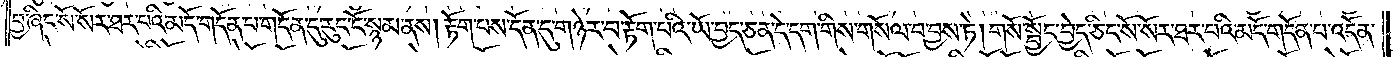བྱ་ཞིང་སོ་སོར་ཐར་པའི་མདོ་གདོན་པ་གདོན་དུ་རུང་ངོ་སྙམ་ནས། རྟོག་པས་དོན་དུ་གཉེར་བ་རྟོག་པའི་ཡོ་བྱད་ཅན་དེ་དག་གིས་གསོལ་བ་བྱས་ཏེ། གསོ་སྦྱོང་བྱེད་ཅིང་སོ་སོར་ཐར་པའི་མདོ་གདོན་པ་འདོན་
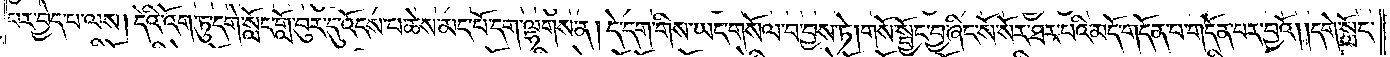པར་བྱེད་པ་ལས། དེའི་འོག་ཏུ་དགེ་སློང་གློ་བུར་དུ་འོངས་པ་ཆེས་མང་པོ་དག་ལྷགས་ན། དེ་དག་གིས་ཡང་གསོལ་བ་བྱས་ཏེ། གསོ་སྦྱོང་བྱ་ཞིང་སོ་སོར་ཐར་པའི་མདོ་གདོན་པ་གདོན་པར་བྱའོ། །དགེ་སློང་
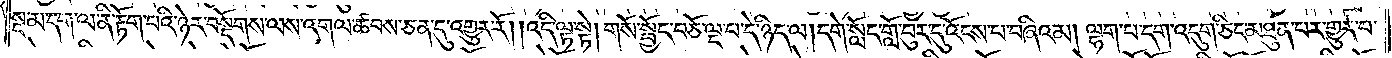སྔ་མ་དག་ལ་ནི་རྟོག་པའི་ཉེར་བསྡོགས་ལས་འགལ་ཚབས་ཅན་དུ་འགྱུར་རོ། །འདི་ལྟ་སྟེ། གསོ་སྦྱོང་བཅོ་ལྔ་པ་དེ་ཉིད་ལ། དགེ་སློང་གློ་བུར་དུ་འོངས་པ་བཞིའམ། ལྷག་པ་དག་འདུག་ཅིང་མཐུན་པར་གྱུར་བ་
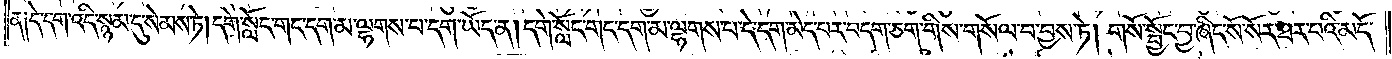ན། དེ་དག་འདི་སྙམ་དུ་སེམས་ཏེ། དགེ་སློང་གང་དག་མ་ལྷགས་པ་དག་ཡོད་ན། དགེ་སློང་གང་དག་མ་ལྷགས་པ་དེ་དག་མེད་པར་བདག་ཅག་གིས་གསོལ་བ་བྱས་ཏེ། གསོ་སྦྱོང་བྱ་ཞིང་སོ་སོར་ཐར་པའི་མདོ་
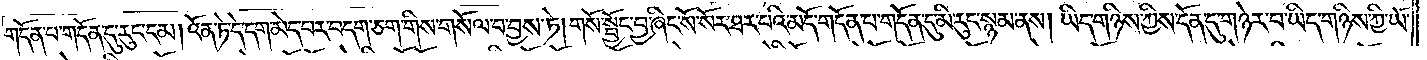གདོན་པ་གདོན་དུ་རུང་ངམ། འོན་ཏེ་དེ་དག་མེད་པར་བདག་ཅག་གིས་གསོལ་བ་བྱས་ཏེ། གསོ་སྦྱོང་བྱ་ཞིང་སོ་སོར་ཐར་པའི་མདོ་གདོན་པ་གདོན་དུ་མི་རུང་སྙམ་ནས། ཡིད་གཉིས་ཀྱིས་དོན་དུ་གཉེར་བ་ཡིད་གཉིས་ཀྱི་ཡོ་
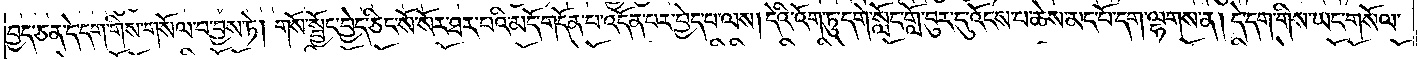བྱད་ཅན་དེ་དག་གིས་གསོལ་བ་བྱས་ཏེ། གསོ་སྦྱོང་བྱེད་ཅིང་སོ་སོར་ཐར་པའི་མདོ་གདོན་པ་འདོན་པར་བྱེད་པ་ལས། དེའི་འོག་ཏུ་དགེ་སློང་གློ་བུར་དུ་འོངས་པ་ཆེས་མང་པོ་དག་ལྷགས་ན། དེ་དག་གིས་ཡང་གསོལ་
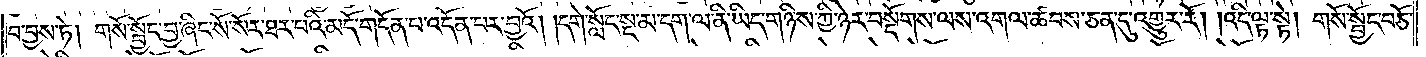བ་བྱས་ཏེ། གསོ་སྦྱོང་བྱ་ཞིང་སོ་སོར་ཐར་པའི་མདོ་གདོན་པ་འདོན་པར་བྱའོ། །དགེ་སློང་སྔ་མ་དག་ལ་ནི་ཡིད་གཉིས་ཀྱི་ཉེར་བསྡོགས་ལས་འགལ་ཚབས་ཅན་དུ་འགྱུར་རོ། །འདི་ལྟ་སྟེ། གསོ་སྦྱོང་བཅོ་
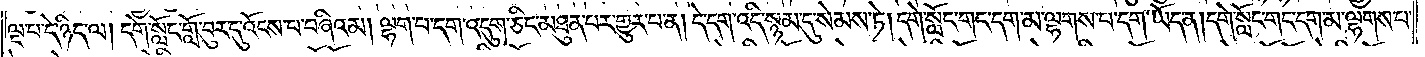ལྔ་པ་དེ་ཉིད་ལ། དགེ་སློང་གློ་བུར་དུ་འོངས་པ་བཞིའམ། ལྷག་པ་དག་འདུག་ཅིང་མཐུན་པར་གྱུར་པ་ན། དེ་དག་འདི་སྙམ་དུ་སེམས་ཏེ། དགེ་སློང་གང་དག་མ་ལྷགས་པ་དག་ཡོད་ན། དགེ་སློང་གང་དག་མ་ལྷགས་པ་
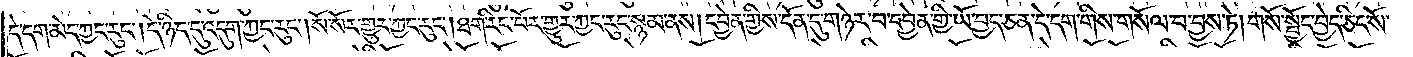དེ་དག་མེད་ཀྱང་རུང༌། དེ་ཉིད་དུ་འདུག་ཀྱང་རུང༌། སོ་སོར་གྱུར་ཀྱང་རུང༌། ཐག་རིང་པོར་གྱུར་ཀྱང་རུང་སྙམ་ནས། དབྱེན་གྱིས་དོན་དུ་གཉེར་བ་དབྱེན་གྱི་ཡོ་བྱད་ཅན་དེ་དག་གིས་གསོལ་བ་བྱས་ཏེ། གསོ་སྦྱོང་བྱེད་ཅིང་སོ་
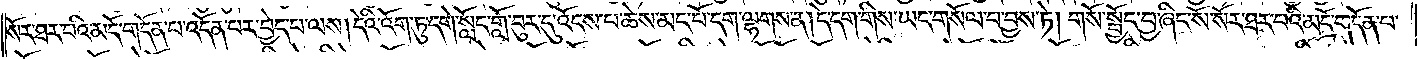སོར་ཐར་པའི་མདོ་གདོན་པ་འདོན་པར་བྱེད་པ་ལས། དེའི་འོག་ཏུ་དགེ་སློང་གློ་བུར་དུ་འོངས་པ་ཆེས་མང་པོ་དག་ལྷགས་ན། དེ་དག་གིས་ཡང་གསོལ་བ་བྱས་ཏེ། གསོ་སྦྱོང་བྱ་ཞིང་སོ་སོར་ཐར་པའི་མདོ་གདོན་པ་
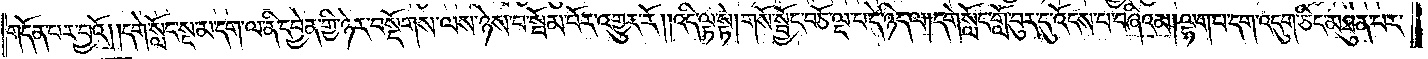གདོན་པར་བྱའོ། །དགེ་སློང་སྔ་མ་དག་ལ་ནི་དབྱེན་གྱི་ཉེར་བསྡོགས་ལས་ཉེས་པ་སྦོམ་པོར་འགྱུར་རོ། །འདི་ལྟ་སྟེ། གསོ་སྦྱོང་བཅོ་ལྔ་པ་དེ་ཉིད་ལ། དགེ་སློང་གློ་བུར་དུ་འོངས་པ་བཞིའམ། ལྷག་པ་དག་འདུག་ཅིང་མཐུན་པར་
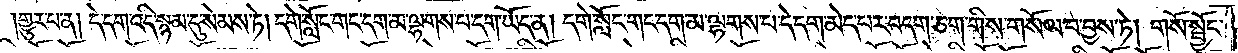གྱུར་པ་ན། དེ་དག་འདི་སྙམ་དུ་སེམས་ཏེ། དགེ་སློང་གང་དག་མ་ལྷགས་པ་དག་ཡོད་ན། དགེ་སློང་གང་དག་མ་ལྷགས་པ་དེ་དག་མེད་པར་བདག་ཅག་གིས་གསོལ་བ་བྱས་ཏེ། གསོ་སྦྱོང་
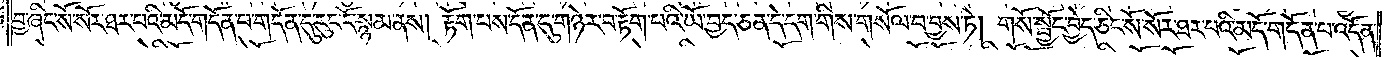བྱ་ཞིང་སོ་སོར་ཐར་པའི་མདོ་གདོན་པ་གདོན་དུ་རུང་ངོ་སྙམ་ནས། རྟོག་པས་དོན་དུ་གཉེར་བ་རྟོག་པའི་ཡོ་བྱད་ཅན་དེ་དག་གིས་གསོལ་བ་བྱས་ཏེ། གསོ་སྦྱོང་བྱེད་ཅིང་སོ་སོར་ཐར་པའི་མདོ་གདོན་པ་འདོན་
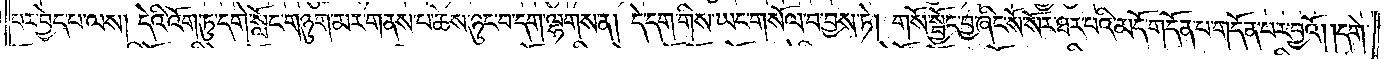པར་བྱེད་པ་ལས། དེའི་འོག་ཏུ་དགེ་སློང་གཉུག་མར་གནས་པ་ཆེས་ཉུང་བ་དག་ལྷགས་ན། དེ་དག་གིས་ཡང་གསོལ་བ་བྱས་ཏེ། གསོ་སྦྱོང་བྱ་ཞིང་སོ་སོར་ཐར་པའི་མདོ་གདོན་པ་གདོན་པར་བྱའོ། །དགེ་
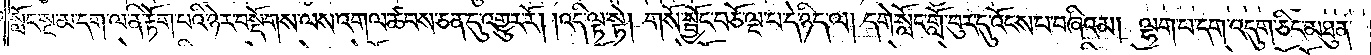སློང་སྔ་མ་དག་ལ་ནི་རྟོག་པའི་ཉེར་བསྡོགས་ལས་འགལ་ཚབས་ཅན་དུ་འགྱུར་རོ། །འདི་ལྟ་སྟེ། གསོ་སྦྱོང་བཅོ་ལྔ་པ་དེ་ཉིད་ལ། དགེ་སློང་གློ་བུར་དུ་འོངས་པ་བཞིའམ། ལྷག་པ་དག་འདུག་ཅིང་མཐུན་
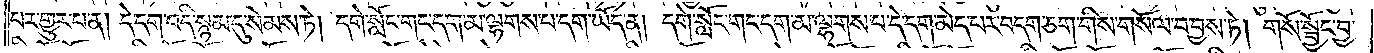པར་གྱུར་པ་ན། དེ་དག་འདི་སྙམ་དུ་སེམས་ཏེ། དགེ་སློང་གང་དག་མ་ལྷགས་པ་དག་ཡོད་ན། དགེ་སློང་གང་དག་མ་ལྷགས་པ་དེ་དག་མེད་པར་བདག་ཅག་གིས་གསོལ་བ་བྱས་ཏེ། གསོ་སྦྱོང་བྱ་
